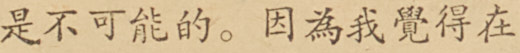是不可能的。因爲我覺得在
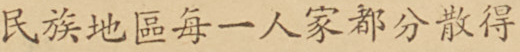民族地區每一人家都分散得
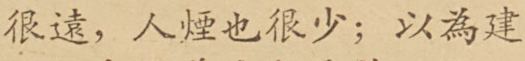很遠，人煙也很少；以為建
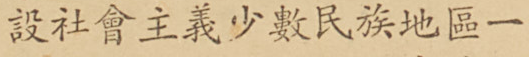設社會主義少數民族地區一
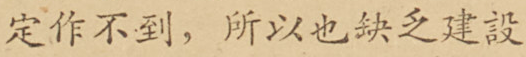定作不到，所以也缺乏建設
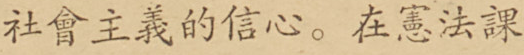社會主義的信心。在憲法課
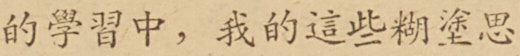的學習中，我的這些糊塗思
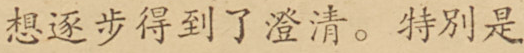想逐步得到了澄清。特別是
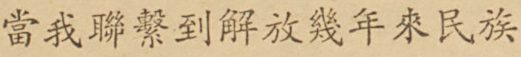當我聯繫到解放幾年來民族
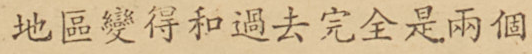地區變得和過去完全是兩個
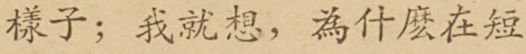樣子；我就想，為什麼在短
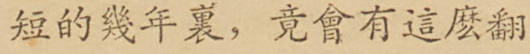短的幾年裏，竟會有這麼翻
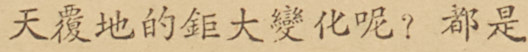天覆地的鉅大變化呢？都是
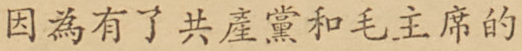因為有了共產黨和毛主席的
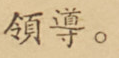領導。
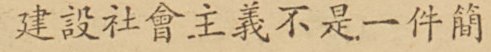建設社會主義不是一件簡
